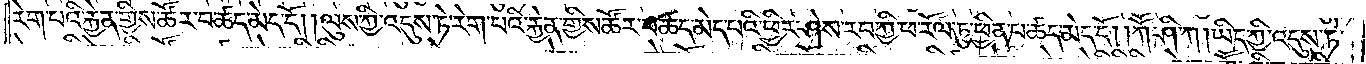རེག་པའི་རྐྱེན་གྱིས་ཚོར་བ་ཚད་མེད་དོ། །ལུས་ཀྱི་འདུས་ཏེ་རེག་པའི་རྐྱེན་གྱིས་ཚོར་བ་ཚད་མེད་པའི་ཕྱིར་ཤེས་རབ་ཀྱི་ཕ་རོལ་ཏུ་ཕྱིན་པ་ཚད་མེད་དོ། །ཀཽ་ཤི་ཀ། ཡིད་ཀྱི་འདུས་ཏེ་
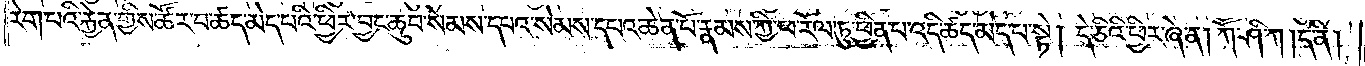རེག་པའི་རྐྱེན་གྱིས་ཚོར་བ་ཚད་མེད་པའི་ཕྱིར་བྱང་ཆུབ་སེམས་དཔའ་སེམས་དཔའ་ཆེན་པོ་རྣམས་ཀྱི་ཕ་རོལ་ཏུ་ཕྱིན་པ་འདི་ཚད་མེད་པ་སྟེ། དེ་ཅིའི་ཕྱིར་ཞེ་ན། ཀཽ་ཤི་ཀ །དེ་ནི།
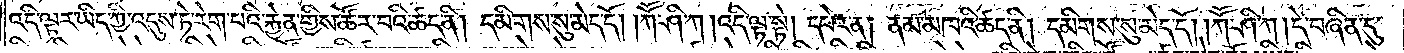འདི་ལྟར་ཡིད་ཀྱི་འདུས་ཏེ་རེག་པའི་རྐྱེན་གྱིས་ཚོར་བའི་ཚད་ནི། དམིགས་སུ་མེད་དོ། །ཀཽ་ཤི་ཀ། འདི་ལྟ་སྟེ། དཔེར་ན། ནམ་མཁའི་ཚད་ནི། དམིགས་སུ་མེད་དོ། །ཀཽ་ཤི་ཀ། དེ་བཞིན་དུ་
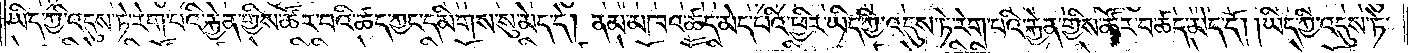ཡིད་ཀྱི་འདུས་ཏེ་རེག་པའི་རྐྱེན་གྱིས་ཚོར་བའི་ཚད་ཀྱང་དམིགས་སུ་མེད་དེ། ནམ་མཁའ་ཚད་མེད་པའི་ཕྱིར་ཡིད་ཀྱི་འདུས་ཏེ་རེག་པའི་རྐྱེན་གྱིས་ཚོར་བ་ཚད་མེད་དོ། །ཡིད་ཀྱི་འདུས་ཏེ་
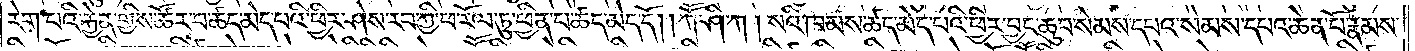རེག་པའི་རྐྱེན་གྱིས་ཚོར་བ་ཚད་མེད་པའི་ཕྱིར་ཤེས་རབ་ཀྱི་ཕ་རོལ་ཏུ་ཕྱིན་པ་ཚད་མེད་དོ། །ཀཽ་ཤི་ཀ། སའི་ཁམས་ཚད་མེད་པའི་ཕྱིར་བྱང་ཆུབ་སེམས་དཔའ་སེམས་དཔའ་ཆེན་པོ་རྣམས་
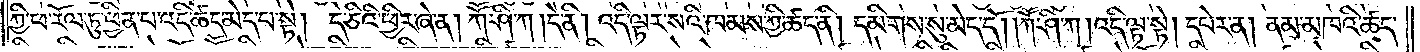ཀྱི་ཕ་རོལ་ཏུ་ཕྱིན་པ་འདི་ཚད་མེད་པ་སྟེ། དེ་ཅིའི་ཕྱིར་ཞེ་ན། ཀཽ་ཤི་ཀ། དེ་ནི། འདི་ལྟར་སའི་ཁམས་ཀྱི་ཚད་ནི། དམིགས་སུ་མེད་དོ། །ཀཽ་ཤི་ཀ། འདི་ལྟ་སྟེ། དཔེར་ན། ནམ་མཁའི་ཚད་
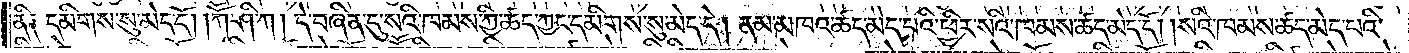ནི༑ དམིགས་སུ་མེད་དོ། །ཀཽ་ཤི་ཀ། དེ་བཞིན་དུ་སའི་ཁམས་ཀྱི་ཚད་ཀྱང་དམིགས་སུ་མེད་དེ། ནམ་མཁའ་ཚད་མེད་པའི་ཕྱིར་སའི་ཁམས་ཚད་མེད་དོ། །སའི་ཁམས་ཚད་མེད་པའི་
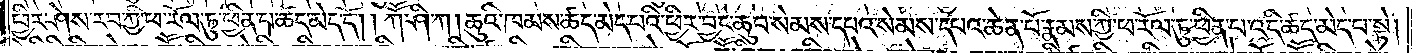ཕྱིར་ཤེས་རབ་ཀྱི་ཕ་རོལ་ཏུ་ཕྱིན་པ་ཚད་མེད་དོ། །ཀཽ་ཤི་ཀ། ཆུའི་ཁམས་ཚད་མེད་པའི་ཕྱིར་བྱང་ཆུབ་སེམས་དཔའ་སེམས་དཔའ་ཆེན་པོ་རྣམས་ཀྱི་ཕ་རོལ་ཏུ་ཕྱིན་པ་འདི་ཚད་མེད་པ་སྟེ།
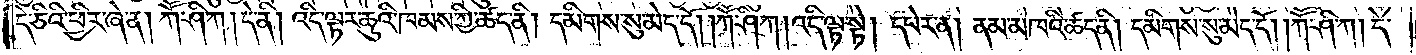དེ་ཅིའི་ཕྱིར་ཞེ་ན། ཀཽ་ཤི་ཀ། དེ་ནི། འདི་ལྟར་ཆུའི་ཁམས་ཀྱི་ཚད་ནི། དམིགས་སུ་མེད་དོ། །ཀཽ་ཤི་ཀ། འདི་ལྟ་སྟེ། དཔེར་ན། ནམ་མཁའི་ཚད་ནི། དམིགས་སུ་མེད་དོ། །ཀཽ་ཤི་ཀ། དེ་
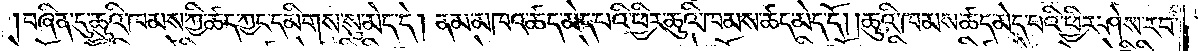བཞིན་དུ་ཆུའི་ཁམས་ཀྱི་ཚད་ཀྱང་དམིགས་སུ་མེད་དེ། ནམ་མཁའ་ཚད་མེད་པའི་ཕྱིར་ཆུའི་ཁམས་ཚད་མེད་དོ། །ཆུའི་ཁམས་ཚད་མེད་པའི་ཕྱིར་ཤེས་རབ་
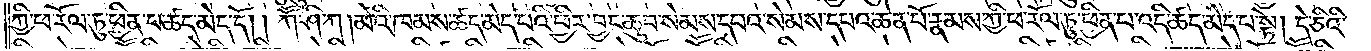ཀྱི་ཕ་རོལ་ཏུ་ཕྱིན་པ་ཚད་མེད་དོ། །ཀཽ་ཤི་ཀ། མེའི་ཁམས་ཚད་མེད་པའི་ཕྱིར་བྱང་ཆུབ་སེམས་དཔའ་སེམས་དཔའ་ཆེན་པོ་རྣམས་ཀྱི་ཕ་རོལ་ཏུ་ཕྱིན་པ་འདི་ཚད་མེད་པ་སྟེ། དེ་ཅིའི་
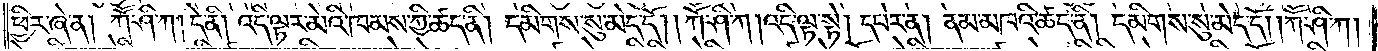ཕྱིར་ཞེ་ན། ཀཽ་ཤི་ཀ། དེ་ནི། འདི་ལྟར་མེའི་ཁམས་ཀྱི་ཚད་ནི། དམིགས་སུ་མེད་དོ། །ཀཽ་ཤི་ཀ། འདི་ལྟ་སྟེ། དཔེར་ན། ནམ་མཁའི་ཚད་ནི། དམིགས་སུ་མེད་དོ། །ཀཽ་ཤི་ཀ།
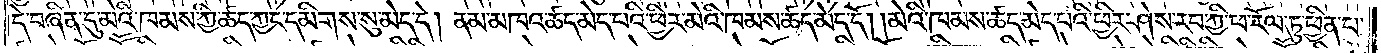དེ་བཞིན་དུ་མེའི་ཁམས་ཀྱི་ཚད་ཀྱང་དམིགས་སུ་མེད་དེ། ནམ་མཁའ་ཚད་མེད་པའི་ཕྱིར་མེའི་ཁམས་ཚད་མེད་དོ། །མེའི་ཁམས་ཚད་མེད་པའི་ཕྱིར་ཤེས་རབ་ཀྱི་ཕ་རོལ་ཏུ་ཕྱིན་པ་
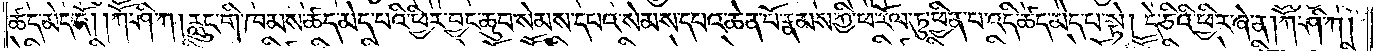ཚད་མེད་དོ། །ཀཽ་ཤི་ཀ། རླུང་གི་ཁམས་ཚད་མེད་པའི་ཕྱིར་བྱང་ཆུབ་སེམས་དཔའ་སེམས་དཔའ་ཆེན་པོ་རྣམས་ཀྱི་ཕ་རོལ་ཏུ་ཕྱིན་པ་འདི་ཚད་མེད་པ་སྟེ། དེ་ཅིའི་ཕྱིར་ཞེ་ན། ཀཽ་ཤི་ཀ།
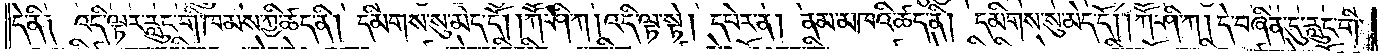དེ་ནི༑ འདི་ལྟར་རླུང་གི་ཁམས་ཀྱི་ཚད་ནི། དམིགས་སུ་མེད་དོ། །ཀཽ་ཤི་ཀ། འདི་ལྟ་སྟེ། དཔེར་ན། ནམ་མཁའི་ཚད་ནི། དམིགས་སུ་མེད་དོ། །ཀཽ་ཤི་ཀ། དེ་བཞིན་དུ་རླུང་གི་
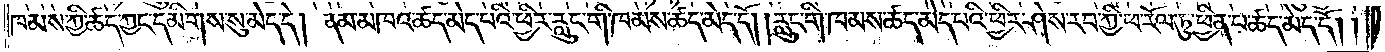ཁམས་ཀྱི་ཚད་ཀྱང་དམིགས་སུ་མེད་དེ། ནམ་མཁའ་ཚད་མེད་པའི་ཕྱིར་རླུང་གི་ཁམས་ཚད་མེད་དོ། །རླུང་གི་ཁམས་ཚད་མེད་པའི་ཕྱིར་ཤེས་རབ་ཀྱི་ཕ་རོལ་ཏུ་ཕྱིན་པ་ཚད་མེད་དོ། །
